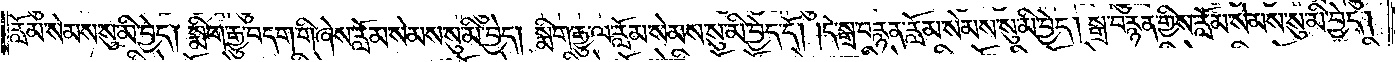རློམ་སེམས་སུ་མི་བྱེད། སྨིག་རྒྱུ་བདག་གི་ཞེས་རློམ་སེམས་སུ་མི་བྱེད། སྨིག་རྒྱུ་ལ་རློམ་སེམས་སུ་མི་བྱེད་དོ། །དེ་སྒྲ་བརྙན་རློམ་སེམས་སུ་མི་བྱེད། སྒྲ་བརྙན་གྱིས་རློམ་སེམས་སུ་མི་བྱེད།
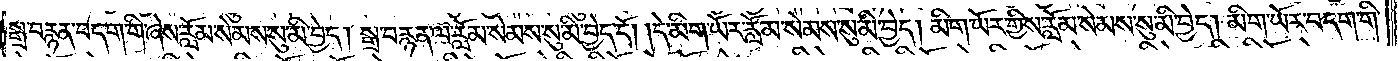སྒྲ་བརྙན་བདག་གི་ཞེས་རློམ་སེམས་སུ་མི་བྱེད། སྒྲ་བརྙན་ལ་རློམ་སེམས་སུ་མི་བྱེད་དོ། །དེ་མིག་ཡོར་རློམ་སེམས་སུ་མི་བྱེད། མིག་ཡོར་གྱིས་རློམ་སེམས་སུ་མི་བྱེད། མིག་ཡོར་བདག་གི་
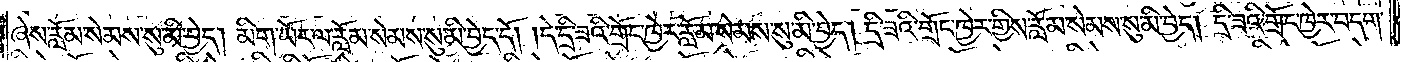ཞེས་རློམ་སེམས་སུ་མི་བྱེད། མིག་ཡོར་ལ་རློམ་སེམས་སུ་མི་བྱེད་དོ། །དེ་དྲི་ཟའི་གྲོང་ཁྱེར་རློམ་སེམས་སུ་མི་བྱེད། དྲི་ཟའི་གྲོང་ཁྱེར་གྱིས་རློམ་སེམས་སུ་མི་བྱེད། དྲི་ཟའི་གྲོང་ཁྱེར་བདག་
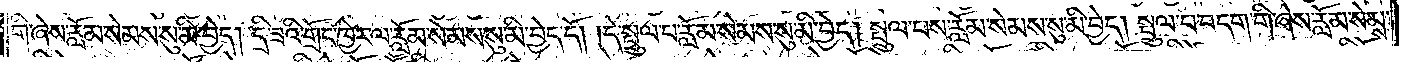གི་ཞེས་རློམ་སེམས་སུ་མི་བྱེད། དྲི་ཟའི་གྲོང་ཁྱེར་ལ་རློམ་སེམས་སུ་མི་བྱེད་དོ། །དེ་སྤྲུལ་པ་རློམ་སེམས་སུ་མི་བྱེད། སྤྲུལ་པས་རློམ་སེམས་སུ་མི་བྱེད། སྤྲུལ་པ་བདག་གི་ཞེས་རློམ་སེམས་
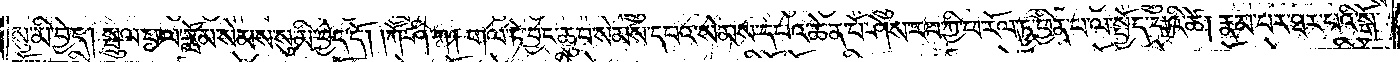སུ་མི་བྱེད། སྤྲུལ་པ་ལ་རློམ་སེམས་སུ་མི་བྱེད་དོ། །ཀཽ་ཤི་ཀ། གལ་ཏེ་བྱང་ཆུབ་སེམས་དཔའ་སེམས་དཔའ་ཆེན་པོ་ཤེས་རབ་ཀྱི་ཕ་རོལ་ཏུ་ཕྱིན་པ་ལ་སྤྱོད་པའི་ཚེ། རྣམ་པར་ཐར་པའི་སྒོ་
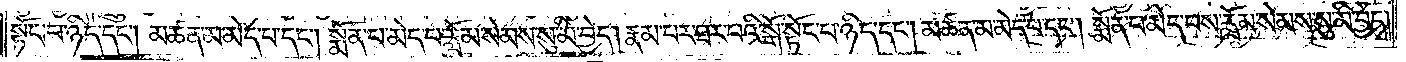སྟོང་པ་ཉིད་དང༌། མཚན་མ་མེད་པ་དང༌། སྨོན་པ་མེད་པ་རློམ་སེམས་སུ་མི་བྱེད། རྣམ་པར་ཐར་པའི་སྒོ་སྟོང་པ་ཉིད་དང༌། མཚན་མ་མེད་པ་དང༌། སྨོན་པ་མེད་པས་རློམ་སེམས་སུ་མི་བྱེད།
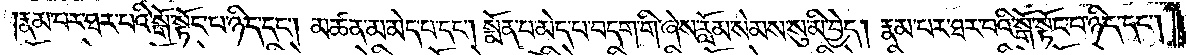རྣམ་པར་ཐར་པའི་སྒོ་སྟོང་པ་ཉིད་དང༌། མཚན་མ་མེད་པ་དང༌། སྨོན་པ་མེད་པ་བདག་གི་ཞེས་རློམ་སེམས་སུ་མི་བྱེད། རྣམ་པར་ཐར་པའི་སྒོ་སྟོང་པ་ཉིད་དང༌།
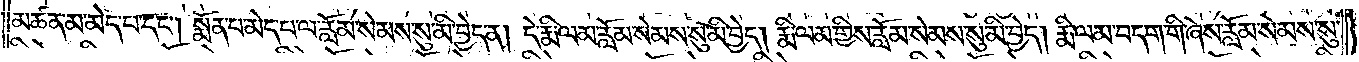མཚན་མ་མེད་པ་དང༌། སྨོན་པ་མེད་པ་ལ་རློམ་སེམས་སུ་མི་བྱེད་ན། དེ་རྨི་ལམ་རློམ་སེམས་སུ་མི་བྱེད། རྨི་ལམ་གྱིས་རློམ་སེམས་སུ་མི་བྱེད། རྨི་ལམ་བདག་གི་ཞེས་རློམ་སེམས་སུ་
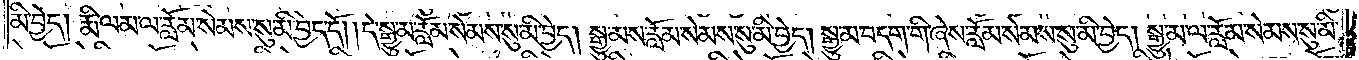མི་བྱེད། རྨི་ལམ་ལ་རློམ་སེམས་སུ་མི་བྱེད་དོ། །དེ་སྒྱུ་མ་རློམ་སེམས་སུ་མི་བྱེད། སྒྱུ་མས་རློམ་སེམས་སུ་མི་བྱེད། སྒྱུ་མ་བདག་གི་ཞེས་རློམ་སེམས་སུ་མི་བྱེད། སྒྱུ་མ་ལ་རློམ་སེམས་སུ་མི་
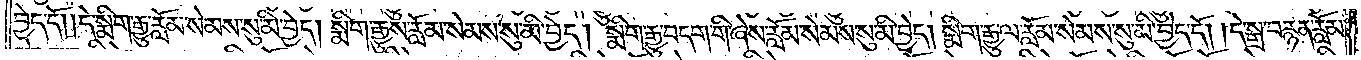བྱེད་དོ། །དེ་སྨིག་རྒྱུ་རློམ་སེམས་སུ་མི་བྱེད། སྨིག་རྒྱུས་རློམ་སེམས་སུ་མི་བྱེད། སྨིག་རྒྱུ་བདག་གི་ཞེས་རློམ་སེམས་སུ་མི་བྱེད། སྨིག་རྒྱུ་ལ་རློམ་སེམས་སུ་མི་བྱེད་དོ། །དེ་སྒྲ་བརྙན་རློམ་
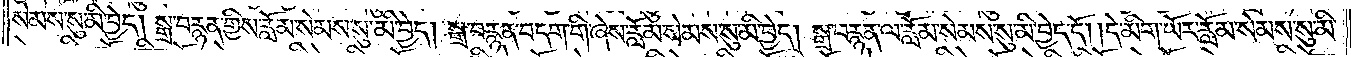སེམས་སུ་མི་བྱེད། སྒྲ་བརྙན་གྱིས་རློམ་སེམས་སུ་མི་བྱེད། སྒྲ་བརྙན་བདག་གི་ཞེས་རློམ་སེམས་སུ་མི་བྱེད། སྒྲ་བརྙན་ལ་རློམ་སེམས་སུ་མི་བྱེད་དོ། །དེ་མིག་ཡོར་རློམ་སེམས་སུ་མི་
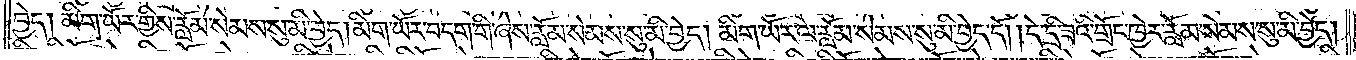བྱེད། མིག་ཡོར་གྱིས་རློམ་སེམས་སུ་མི་བྱེད། མིག་ཡོར་བདག་གི་ཞེས་རློམ་སེམས་སུ་མི་བྱེད། མིག་ཡོར་ལ་རློམ་སེམས་སུ་མི་བྱེད་དོ། །དེ་དྲི་ཟའི་གྲོང་ཁྱེར་རློམ་སེམས་སུ་མི་བྱེད།
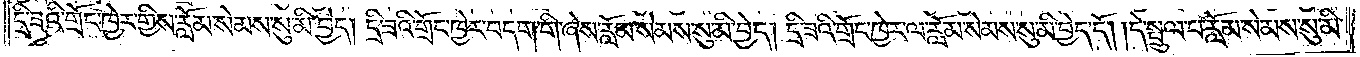དྲི་ཟའི་གྲོང་ཁྱེར་གྱིས་རློམ་སེམས་སུ་མི་བྱེད། དྲི་ཟའི་གྲོང་ཁྱེར་བདག་གི་ཞེས་རློམ་སེམས་སུ་མི་བྱེད། དྲི་ཟའི་གྲོང་ཁྱེར་ལ་རློམ་སེམས་སུ་མི་བྱེད་དོ། །དེ་སྤྲུལ་པ་རློམ་སེམས་སུ་མི་
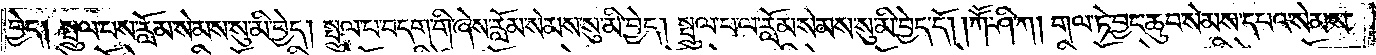བྱེད། སྤྲུལ་པས་རློམ་སེམས་སུ་མི་བྱེད། སྤྲུལ་པ་བདག་གི་ཞེས་རློམ་སེམས་སུ་མི་བྱེད། སྤྲུལ་པ་ལ་རློམ་སེམས་སུ་མི་བྱེད་དོ། །ཀཽ་ཤི་ཀ། གལ་ཏེ་བྱང་ཆུབ་སེམས་དཔའ་སེམས་
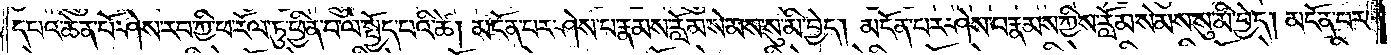དཔའ་ཆེན་པོ་ཤེས་རབ་ཀྱི་ཕ་རོལ་ཏུ་ཕྱིན་པ་ལ་སྤྱོད་པའི་ཚེ། མངོན་པར་ཤེས་པ་རྣམས་རློམ་སེམས་སུ་མི་བྱེད། མངོན་པར་ཤེས་པ་རྣམས་ཀྱིས་རློམ་སེམས་སུ་མི་བྱེད། མངོན་པར་
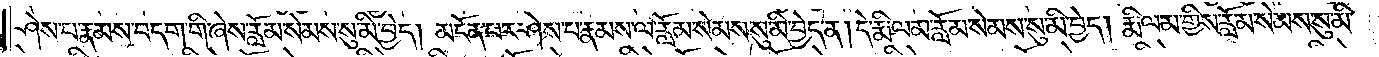ཤེས་པ་རྣམས་བདག་གི་ཞེས་རློམ་སེམས་སུ་མི་བྱེད། མངོན་པར་ཤེས་པ་རྣམས་ལ་རློམ་སེམས་སུ་མི་བྱེད་ན། དེ་རྨི་ལམ་རློམ་སེམས་སུ་མི་བྱེད། རྨི་ལམ་གྱིས་རློམ་སེམས་སུ་མི་
